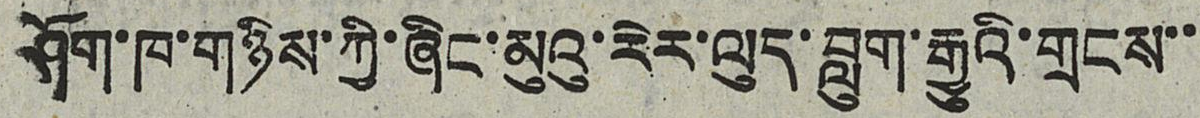ཤོག་ཁ་གཉིས་ཀྱི་ཞིང་མུའུ་རེར་ལུད་བླུག་རྒྱུའི་གྲངས་་
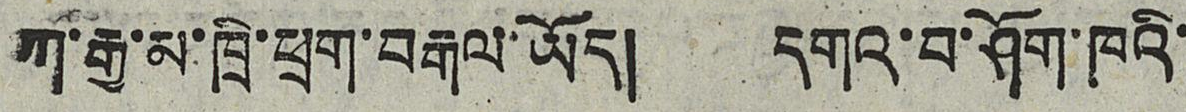ཀ་རྒྱ་མ་ཁྲི་ཕྲག་བརྒལ་ཡོད། དགའ་བ་ཤོག་ཁའི་
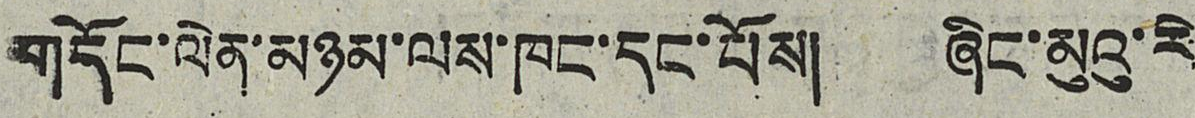གདོང་ལེན་མཉམ་ལས་ཁང་དང་པོས། ཞིང་མུའུ་རེ
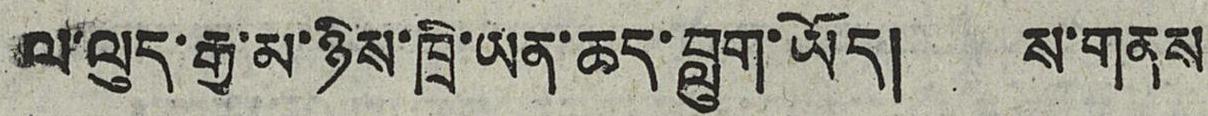ལ་ལུད་རྒྱ་མ་ཉིས་ཁྲི་ཡན་ཆད་བླུག་ཡོད། ས་གནས
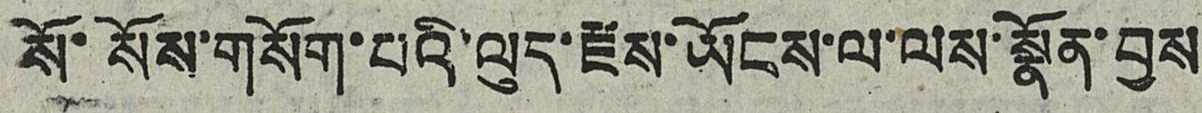སོ་སོས་གསོག་པའི་ལུད་རྫས་ཡོངས་ལ་ལས་སྣོན་བྱས
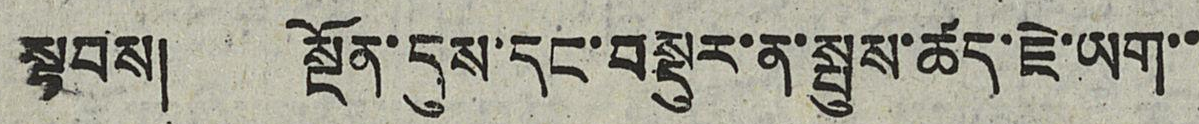སྟབས། སྔོན་དུས་དང་བསྡུར་ན་སྤུས་ཚད་ཇེ་ཡག་་
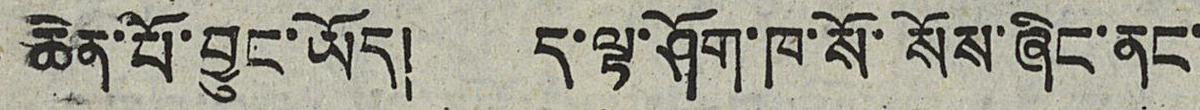ཆེན་པོ་བྱུང་ཡོད། ད་ལྟ་ཤོག་ཁ་སོ་སོས་ཞིང་ནང་
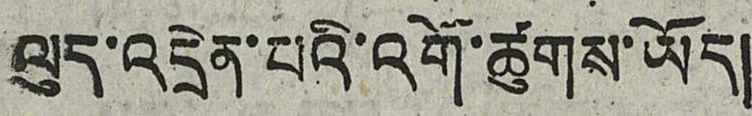ལུད་འདྲེན་པའི་འགོ་ཚུགས་ཡོད།
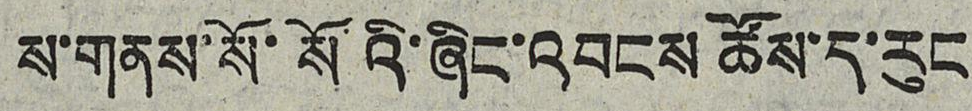ས་གནས་སོ་སོའི་ཞིང་འབངས ཚོས་ད་རུང
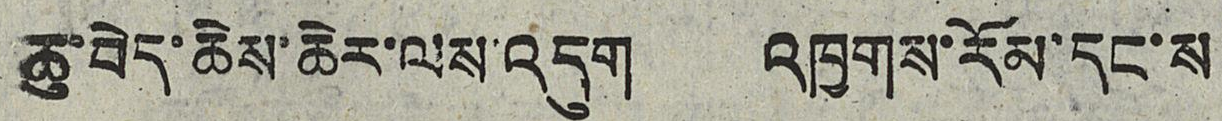ཆུ་བེད་ཆེས་ཆེར་ལས་འདུག འཁྱགས་རོམ་དང་ས
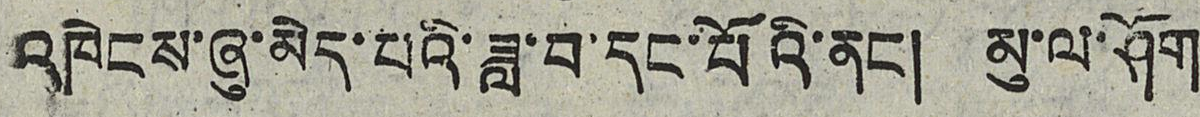འཁེངས་ཞུ་མེད་པའི་ཟླ་བ་དང་པོའི་ནང། མུ་ལ་ཤོག
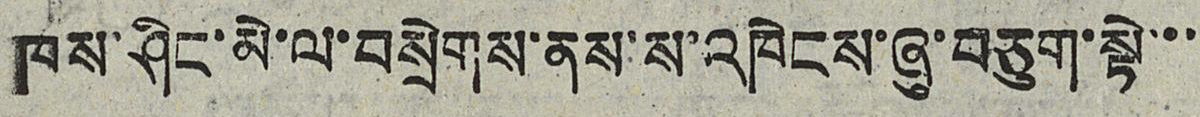ཁས་ཤིང་མེ་ལ་བསྲེགས་ནས་ས་འཁེངས་ཞུ་བཅུག་སྟེ་་་
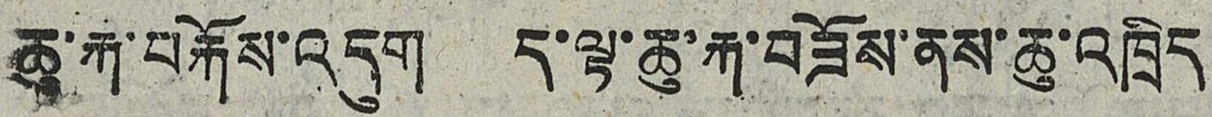ཆུ་རྐ་བརྐོས་འདུག ད་ལྟ་ཆུ་རྐ་བཟོས་ནས་ཆུ་འཁྲིད
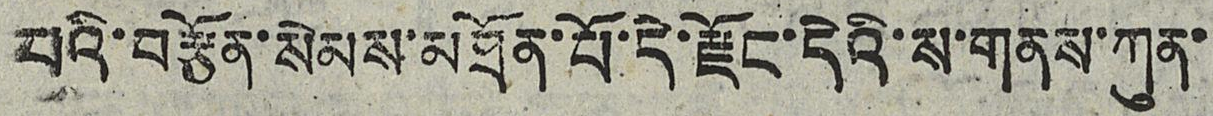པའི་བརྩོན་སེམས་མཐོན་པོ་དེ་རྫོང་དེའི་ས་གནས་ཀུན་
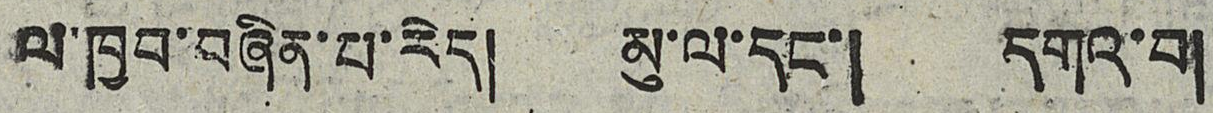ལ་ཁྱབ་བཞིན་པ་རེད། མུ་ལ་དང་། དགའ་བ།
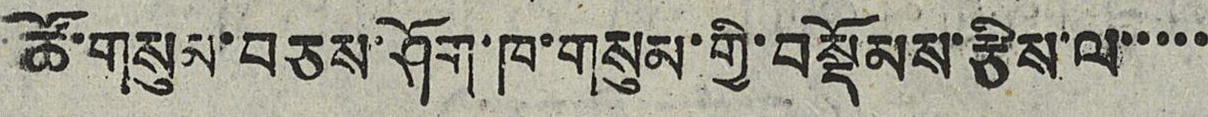ཚོ་གསུམ་བཅས་ཤོག་ཁ་གསུམ་གྱི་བསྡོམས་རྩིས་ལ་་་་་
